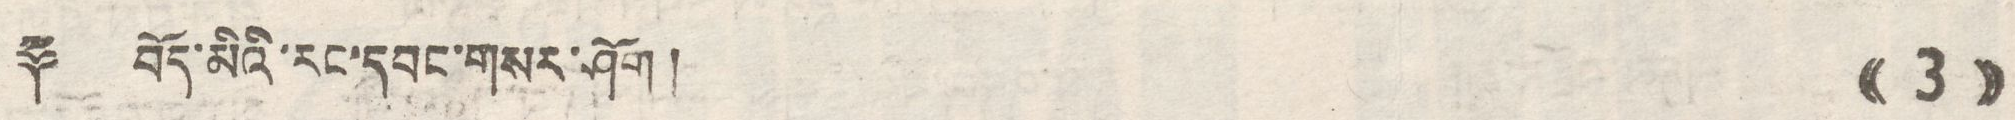༈ བོད་མིའི་རང་དབང་གསར་ཤོག ། (( 3 ))
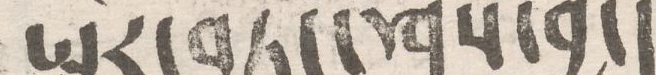སྤྱིར་བཏང་ཤེས་བྱ།
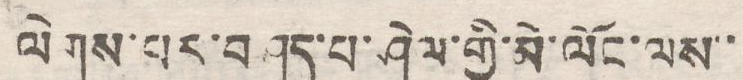ལེགས་པར་བཤད་ཤེལ་གྱི་མེ་ལོང་ལས་་
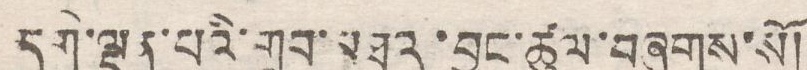དགེ་ལྡན་པའི་གྲུབ་མཐའ་བྱུང་ཚུལ་བཞུགས་སོ།
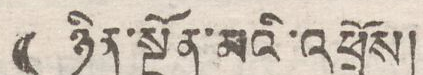(( ཉིན་སྔོན་མའི་འཕྲོས།
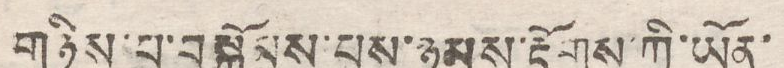གཉིས་པ་བསྒོམས་པས་ཉམས་རྟོགས་ཀྱི་ཡོན་
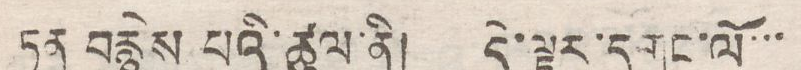ཏན བརྙེད པའི་ཚུལ་ནི། དེ་ལྟར་དགུང་ལོ་་་
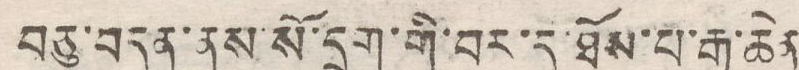བཅུ་བདུན་ནས་སོ་དྲུག་གི་བར་དུ་ཐོས་པ་རྒྱ་ཆེན
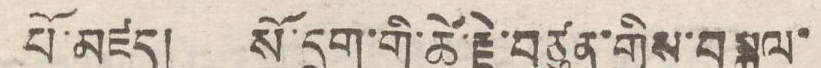པོ་མཛད། སོ་དྲུག་གི་ཚེ་རྗེ་བཙུན་གྱིས་བསྐུལ་
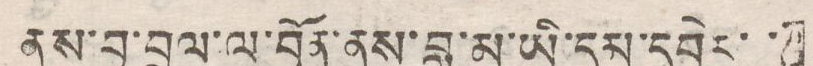ནས་བྱ་བྲལ་ལ་བྱོན་ནས་བླ་མ་ཡི་དམ་དབྱེར་་
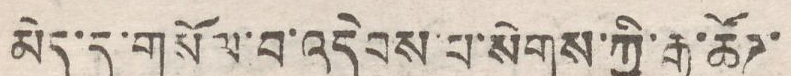མེད་དུ་གསོལ་བ་འདེབས་པ་སེགས་ཀྱི་རྒྱུ་ཚོཌ་
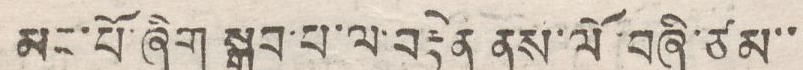མང་པོ་ཞིག སྒྲུབ་པ་ལ་བརྟེན ནས་ལོ་བཞི་ཙམ་་
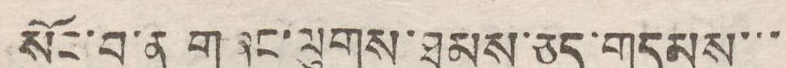སོང་བ་ན གཞུང་ལུགས་ཐམས་ཅད་གདམས་་་
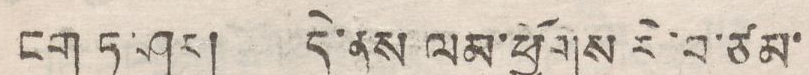ངག ཏུ་ཤར། དེ་ནས ལམ་ཕྱོགས རེ་བ་ཙམ་
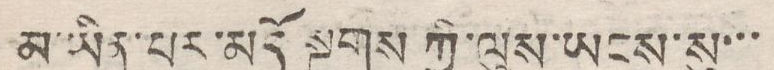མ་ཡིན་པར་མདོ སྔགས ཀྱི་ལུས་ཡངས་སུ་་་
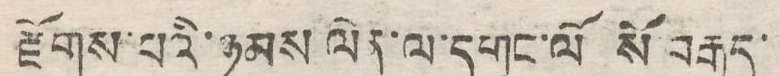རྫོགས་པའི་ཉམས ལེན་ལ་དགུང་ལོ སོ་བརྒྱད་
